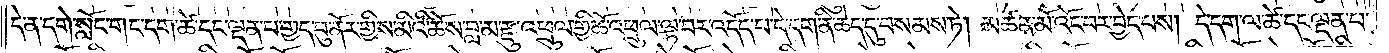དེ་ན་དགེ་སློང་གང་དག་ཚེ་དང་ལྡན་པ་གྱད་བུ་ནོར་གྱིས་མིའི་ཆོས་བླ་མ་རྫུ་འཕྲུལ་གྱི་ཆོ་འཕྲུལ་ལྟ་བར་འདོད་པ་དེ་དག་ནི་ཆེད་དུ་བསམས་ཏེ། མཚན་མོ་འོང་བར་བྱེད་པས། དེ་དག་ལ་ཚེ་དང་ལྡན་པ་
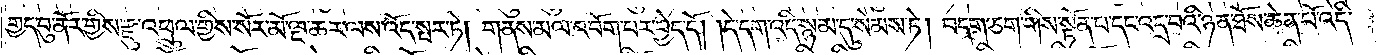གྱད་བུ་ནོར་གྱིས་རྫུ་འཕྲུལ་གྱིས་སོར་མོ་ལྔ་ཆར་ལས་འོད་སྤར་ཏེ། གནས་མལ་འབོག་པར་བྱེད་དོ། །དེ་དག་འདི་སྙམ་དུ་སེམས་ཏེ། བདག་ཅག་གིས་སྟོན་པ་དང་འདྲ་བའི་ཉན་ཐོས་ཆེན་པོ་འདི་
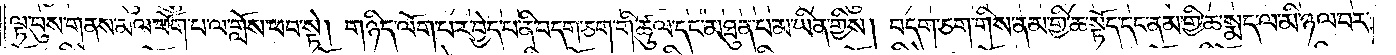ལྟ་བུས་གནས་མལ་ཕོག་པ་ལ་གློས་ཕབ་སྟེ། གཉིད་ལོག་པར་བྱེད་པ་ནི་བདག་ཅག་གི་ཚུལ་དང་མཐུན་པ་མ་ཡིན་གྱིས། བདག་ཅག་གིས་ནམ་གྱི་ཆ་སྟོད་དང་ནམ་གྱི་ཆ་སྨད་ལ་མི་ཉལ་བར་
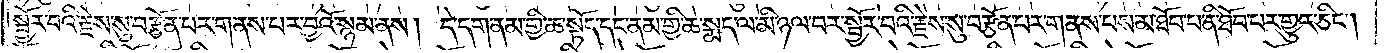སྦྱོར་བའི་རྗེས་སུ་བརྩོན་པར་གནས་པར་བྱའོ་སྙམ་ནས། དེ་དག་ནམ་གྱི་ཆ་སྟོད་དང་ནམ་གྱི་ཆ་སྨད་ལ་མི་ཉལ་བར་སྦྱོར་བའི་རྗེས་སུ་བརྩོན་པར་གནས་པས་མ་ཐོབ་པ་ནི་ཐོབ་པར་གྱུར་ཅིང༌།
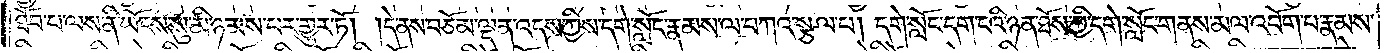ཐོབ་པ་ལས་ནི་ཡོངས་སུ་མི་ཉམས་པར་གྱུར་ཏོ། །དེ་ནས་བཅོམ་ལྡན་འདས་ཀྱིས་དགེ་སློང་རྣམས་ལ་བཀའ་སྩལ་པ། དགེ་སློང་དག་ངའི་ཉན་ཐོས་ཀྱི་དགེ་སློང་གནས་མལ་འབོག་པ་རྣམས་
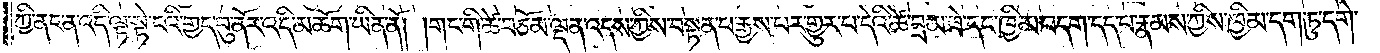ཀྱི་ནང་ན་འདི་ལྟ་སྟེ་ངའི་གྱད་བུ་ནོར་འདི་མཆོག་ཡིན་ནོ། །གང་གི་ཚེ་བཅོམ་ལྡན་འདས་ཀྱིས་བསྟན་པ་རྒྱས་པར་གྱུར་པ་དེའི་ཚེ་བྲམ་ཟེ་དང་ཁྱིམ་བདག་དད་པ་རྣམས་ཀྱིས་ཁྱིམ་དག་ཏུ་དགེ་
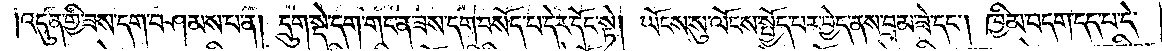འདུན་གྱི་ཟས་དག་བཤམས་པ་ན། དྲུག་སྡེ་དག་གང་ན་ཟས་དག་བསོད་པ་དེར་དོང་སྟེ། ཡོངས་སུ་ལོངས་སྤྱོད་པར་བྱེད་ནས་བྲམ་ཟེ་དང༌། ཁྱིམ་བདག་དད་པ་དེ་
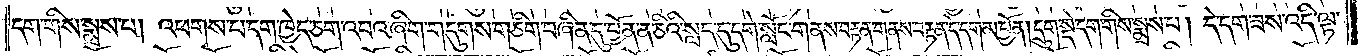དག་གིས་སྨྲས་པ། འཕགས་པ་དག་ཁྱེད་ཅག་འབའ་ཞིག་གདུགས་གཅིག་བཞིན་དུ་བྱོན་ན་ཅིའི་སླད་དུ་དགེ་སློང་གནས་བརྟན་གནས་བརྟན་དེ་དག་མ་བྱོན། དྲུག་སྡེ་དག་གིས་སྨྲས་པ། དེ་དག་ཟས་འདི་ལྟ་
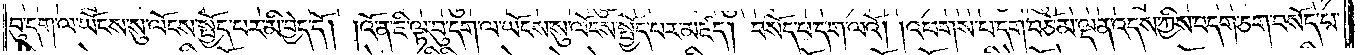བུ་དག་ལ་ཡོངས་སུ་ལོངས་སྤྱོད་པར་མི་བྱེད་དོ། །འོ་ན་ཇི་ལྟ་བུ་དག་ལ་ཡོངས་སུ་ལོངས་སྤྱོད་པར་མཛད། བསོད་པ་དག་ལའོ། །འཕགས་པ་དག་བཅོམ་ལྡན་འདས་ཀྱིས་བདག་ཅག་བསོད་པ་
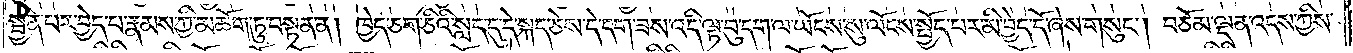སྦྱིན་པར་བྱེད་པ་རྣམས་ཀྱིས་མཆོག་ཏུ་བསྟན་ན། ཁྱེད་ཅག་ཅིའི་སླད་དུ་དེ་སྐད་ཅེས་དེ་དག་ཟས་འདི་ལྟ་བུ་དག་ལ་ཡོངས་སུ་ལོངས་སྤྱོད་པར་མི་བྱེད་དོ་ཞེས་གསུང༌། བཅོམ་ལྡན་འདས་ཀྱིས་
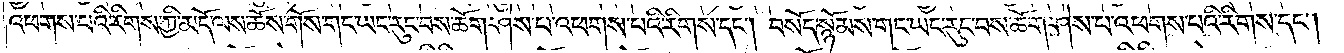འཕགས་པའི་རིགས་ཀྱི་མདོ་ལས་ཆོས་གོས་གང་ཡང་རུང་བས་ཆོག་ཤེས་པ་འཕགས་པའི་རིགས་དང༌། བསོད་སྙོམས་གང་ཡང་རུང་བས་ཆོག་ཤེས་པ་འཕགས་པའི་རིགས་དང༌།
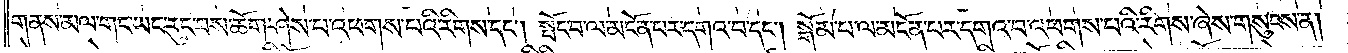གནས་མལ་གང་ཡང་རུང་བས་ཆོག་ཤེས་པ་འཕགས་པའི་རིགས་དང༌། སྤོང་བ་ལ་མངོན་པར་དགའ་བ་དང༌། སྒོམ་པ་ལ་མངོན་པར་དགའ་བ་འཕགས་པའི་རིགས་ཞེས་གསུངས་ན།
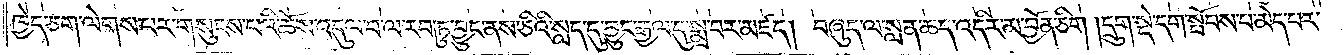ཁྱེད་ཅག་ལེགས་པར་གསུངས་པའི་ཆོས་འདུལ་བ་ལ་རབ་ཏུ་བྱུང་ནས་ཅིའི་སླད་དུ་བྱུང་རྒྱལ་དུ་སྨྲ་བར་མཛད། བཞུད་ལ་སླན་ཆད་འདིར་མ་བྱོན་ཅིག །དྲུག་སྡེ་དག་སྤོབས་པ་མེད་པར་
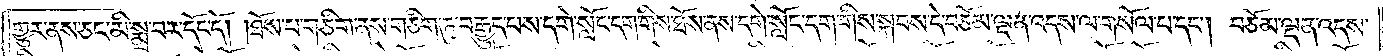གྱུར་ནས་ཅང་མི་སྨྲ་བར་དོང་ངོ༌། །ཐོས་པ་གཅིག་ནས་གཅིག་ཏུ་བརྒྱུད་པས་དགེ་སློང་དག་གིས་ཐོས་ནས་དགེ་སློང་དག་གིས་སྐབས་དེ་བཅོམ་ལྡན་འདས་ལ་གསོལ་པ་དང༌། བཅོམ་ལྡན་འདས་
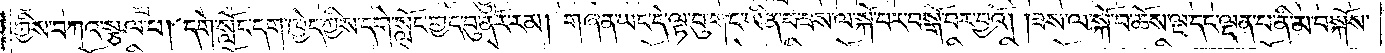ཀྱིས་བཀའ་སྩལ་པ། དགེ་སློང་དག་ཁྱེད་ཀྱིས་དགེ་སློང་གྱད་བུ་ནོར་རམ། གཞན་ཡང་དེ་ལྟ་བུ་གང་ཡིན་པ་ཟས་ལས་སྐོ་བར་བསྒོ་བར་བྱའོ། །ཟས་ལ་སྐོ་བ་ཆོས་ལྔ་དང་ལྡན་པ་ནི་མ་བསྐོས་
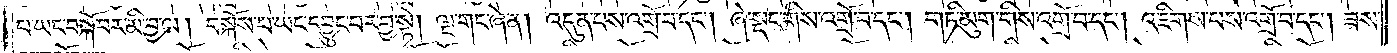པ་ཡང་བསྐོ་བར་མི་བྱ་ལ། བསྐོས་པ་ཡང་དབྱུང་བར་བྱ་སྟེ། ལྔ་གང་ཞེ་ན། འདུན་པས་འགྲོ་བ་དང༌། ཞེ་སྡང་གིས་འགྲོ་བ་དང༌། གཏི་མུག་གིས་འགྲོ་བ་དང༌། འཇིགས་པས་འགྲོ་བ་དང༌། ཟས་
